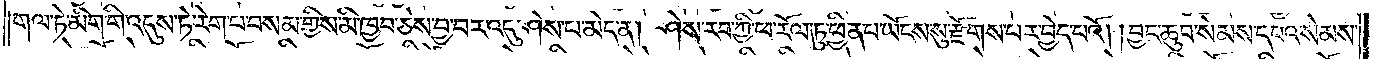གལ་ཏེ་མིག་གི་འདུས་ཏེ་རེག་པ་བསམ་གྱིས་མི་ཁྱབ་ཅེས་བྱ་བར་འདུ་ཤེས་པ་མེད་ན། ཤེས་རབ་ཀྱི་ཕ་རོལ་ཏུ་ཕྱིན་པ་ཡོངས་སུ་རྫོགས་པར་བྱེད་པའོ། །བྱང་ཆུབ་སེམས་དཔའ་སེམས་
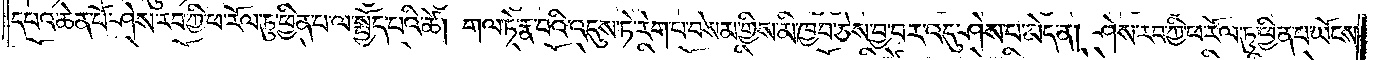དཔའ་ཆེན་པོ་ཤེས་རབ་ཀྱི་ཕ་རོལ་ཏུ་ཕྱིན་པ་ལ་སྤྱོད་པའི་ཚེ། གལ་ཏེ་རྣ་བའི་འདུས་ཏེ་རེག་པ་བསམ་གྱིས་མི་ཁྱབ་ཅེས་བྱ་བར་འདུ་ཤེས་པ་མེད་ན། ཤེས་རབ་ཀྱི་ཕ་རོལ་ཏུ་ཕྱིན་པ་ཡོངས་
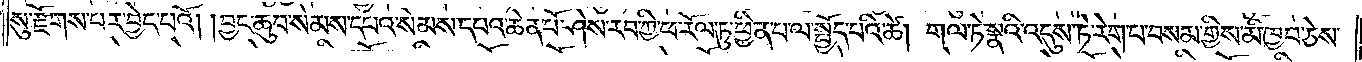སུ་རྫོགས་པར་བྱེད་པའོ། །བྱང་ཆུབ་སེམས་དཔའ་སེམས་དཔའ་ཆེན་པོ་ཤེས་རབ་ཀྱི་ཕ་རོལ་ཏུ་ཕྱིན་པ་ལ་སྤྱོད་པའི་ཚེ། གལ་ཏེ་སྣའི་འདུས་ཏེ་རེག་པ་བསམ་གྱིས་མི་ཁྱབ་ཅེས་
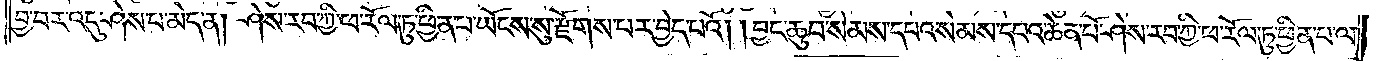བྱ་བར་འདུ་ཤེས་པ་མེད་ན། ཤེས་རབ་ཀྱི་ཕ་རོལ་ཏུ་ཕྱིན་པ་ཡོངས་སུ་རྫོགས་པར་བྱེད་པའོ། །བྱང་ཆུབ་སེམས་དཔའ་སེམས་དཔའ་ཆེན་པོ་ཤེས་རབ་ཀྱི་ཕ་རོལ་ཏུ་ཕྱིན་པ་ལ་
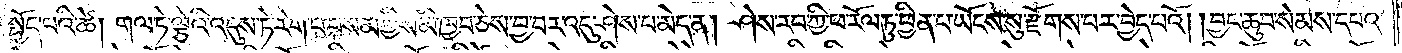སྤྱོད་པའི་ཚེ། གལ་ཏེ་ལྕེའི་འདུས་ཏེ་རེག་པ་བསམ་གྱིས་མི་ཁྱབ་ཅེས་བྱ་བར་འདུ་ཤེས་པ་མེད་ན། ཤེས་རབ་ཀྱི་ཕ་རོལ་ཏུ་ཕྱིན་པ་ཡོངས་སུ་རྫོགས་པར་བྱེད་པའོ། །བྱང་ཆུབ་སེམས་དཔའ་
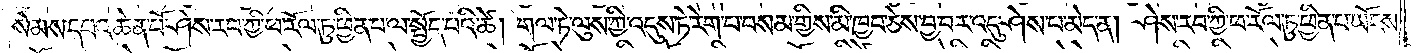སེམས་དཔའ་ཆེན་པོ་ཤེས་རབ་ཀྱི་ཕ་རོལ་ཏུ་ཕྱིན་པ་ལ་སྤྱོད་པའི་ཚེ། གལ་ཏེ་ལུས་ཀྱི་འདུས་ཏེ་རེག་པ་བསམ་གྱིས་མི་ཁྱབ་ཅེས་བྱ་བར་འདུ་ཤེས་པ་མེད་ན། ཤེས་རབ་ཀྱི་ཕ་རོལ་ཏུ་ཕྱིན་པ་ཡོངས་
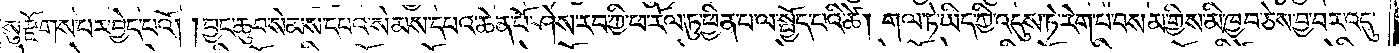སུ་རྫོགས་པར་བྱེད་པའོ། །བྱང་ཆུབ་སེམས་དཔའ་སེམས་དཔའ་ཆེན་པོ་ཤེས་རབ་ཀྱི་ཕ་རོལ་ཏུ་ཕྱིན་པ་ལ་སྤྱོད་པའི་ཚེ། གལ་ཏེ་ཡིད་ཀྱི་འདུས་ཏེ་རེག་པ་བསམ་གྱིས་མི་ཁྱབ་ཅེས་བྱ་བར་འདུ་
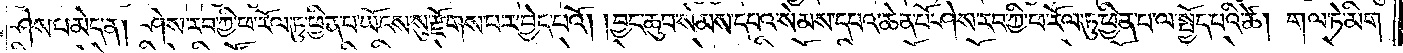ཤེས་པ་མེད་ན། ཤེས་རབ་ཀྱི་ཕ་རོལ་ཏུ་ཕྱིན་པ་ཡོངས་སུ་རྫོགས་པར་བྱེད་པའོ། །བྱང་ཆུབ་སེམས་དཔའ་སེམས་དཔའ་ཆེན་པོ་ཤེས་རབ་ཀྱི་ཕ་རོལ་ཏུ་ཕྱིན་པ་ལ་སྤྱོད་པའི་ཚེ། གལ་ཏེ་མིག་
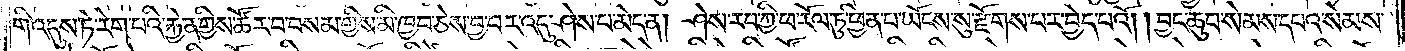གི་འདུས་ཏེ་རེག་པའི་རྐྱེན་གྱིས་ཚོར་བ་བསམ་གྱིས་མི་ཁྱབ་ཅེས་བྱ་བར་འདུ་ཤེས་པ་མེད་ན། ཤེས་རབ་ཀྱི་ཕ་རོལ་ཏུ་ཕྱིན་པ་ཡོངས་སུ་རྫོགས་པར་བྱེད་པའོ། །བྱང་ཆུབ་སེམས་དཔའ་སེམས་
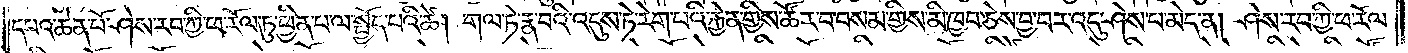དཔའ་ཆེན་པོ་ཤེས་རབ་ཀྱི་ཕ་རོལ་ཏུ་ཕྱིན་པ་ལ་སྤྱོད་པའི་ཚེ། གལ་ཏེ་རྣ་བའི་འདུས་ཏེ་རེག་པའི་རྐྱེན་གྱིས་ཚོར་བ་བསམ་གྱིས་མི་ཁྱབ་ཅེས་བྱ་བར་འདུ་ཤེས་པ་མེད་ན། ཤེས་རབ་ཀྱི་ཕ་རོལ་
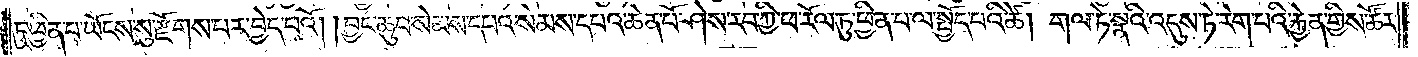ཏུ་ཕྱིན་པ་ཡོངས་སུ་རྫོགས་པར་བྱེད་པའོ། །བྱང་ཆུབ་སེམས་དཔའ་སེམས་དཔའ་ཆེན་པོ་ཤེས་རབ་ཀྱི་ཕ་རོལ་ཏུ་ཕྱིན་པ་ལ་སྤྱོད་པའི་ཚེ། གལ་ཏེ་སྣའི་འདུས་ཏེ་རེག་པའི་རྐྱེན་གྱིས་ཚོར་
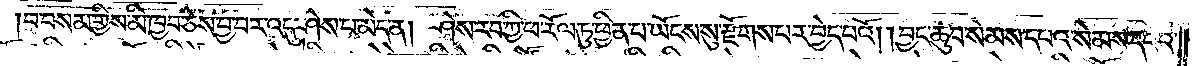བ་བསམ་གྱིས་མི་ཁྱབ་ཅེས་བྱ་བར་འདུ་ཤེས་པ་མེད་ན། ཤེས་རབ་ཀྱི་ཕ་རོལ་ཏུ་ཕྱིན་པ་ཡོངས་སུ་རྫོགས་པར་བྱེད་པའོ། །བྱང་ཆུབ་སེམས་དཔའ་སེམས་དཔའ་
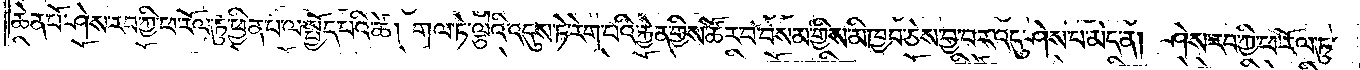ཆེན་པོ་ཤེས་རབ་ཀྱི་ཕ་རོལ་ཏུ་ཕྱིན་པ་ལ་སྤྱོད་པའི་ཚེ། གལ་ཏེ་ལྕེའི་འདུས་ཏེ་རེག་པའི་རྐྱེན་གྱིས་ཚོར་བ་བསམ་གྱིས་མི་ཁྱབ་ཅེས་བྱ་བར་འདུ་ཤེས་པ་མེད་ན། ཤེས་རབ་ཀྱི་ཕ་རོལ་ཏུ་
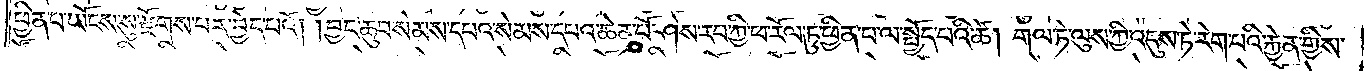ཕྱིན་པ་ཡོངས་སུ་རྫོགས་པར་བྱེད་པའོ། །བྱང་ཆུབ་སེམས་དཔའ་སེམས་དཔའ་ཆེན་པོ་ཤེས་རབ་ཀྱི་ཕ་རོལ་ཏུ་ཕྱིན་པ་ལ་སྤྱོད་པའི་ཚེ། གལ་ཏེ་ལུས་ཀྱི་འདུས་ཏེ་རེག་པའི་རྐྱེན་གྱིས་
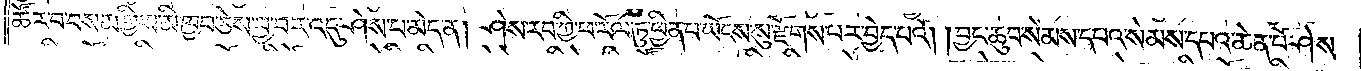ཚོར་བ་བསམ་གྱིས་མི་ཁྱབ་ཅེས་བྱ་བར་འདུ་ཤེས་པ་མེད་ན། ཤེས་རབ་ཀྱི་ཕ་རོལ་ཏུ་ཕྱིན་པ་ཡོངས་སུ་རྫོགས་པར་བྱེད་པའོ། །བྱང་ཆུབ་སེམས་དཔའ་སེམས་དཔའ་ཆེན་པོ་ཤེས་
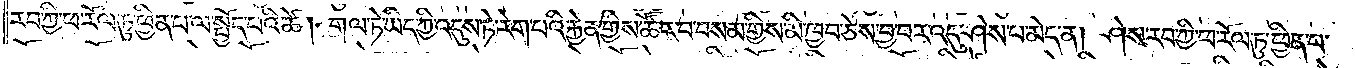རབ་ཀྱི་ཕ་རོལ་ཏུ་ཕྱིན་པ་ལ་སྤྱོད་པའི་ཚེ། གལ་ཏེ་ཡིད་ཀྱི་འདུས་ཏེ་རེག་པའི་རྐྱེན་གྱིས་ཚོར་བ་བསམ་གྱིས་མི་ཁྱབ་ཅེས་བྱ་བར་འདུ་ཤེས་པ་མེད་ན། ཤེས་རབ་ཀྱི་ཕ་རོལ་ཏུ་ཕྱིན་པ་
